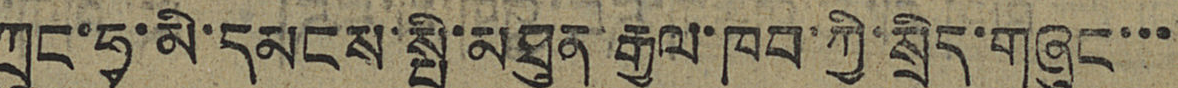ཀྲུང་ཧྭ་མི་དམངས་སྤྱི་མཐུན རྒྱལ་ཁབ་ཀྱི་སྲིད་གཞུང་་་
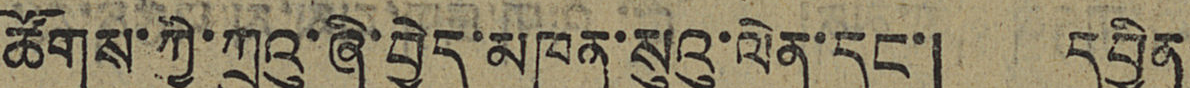ཚོགས་ཀྱི་ཀྲུའུ་ཞི་བྱེད་མཁན་སུའུ་ལེན་དང་། དབྱིན
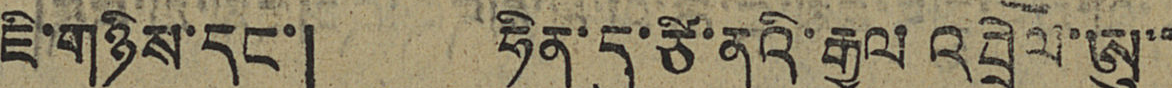ཇི་གཉིས་དང་། ཧིན་དུ་ཙི་ནའི་རྒྱལ འབྲེལ་ཨུ་་
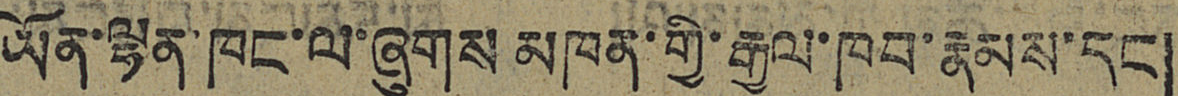ཡོན་ལྷན་ཁང་ལ་ཞུགས་མཁན་གྱི་རྒྱལ་ཁབ་རྣམས་དང།
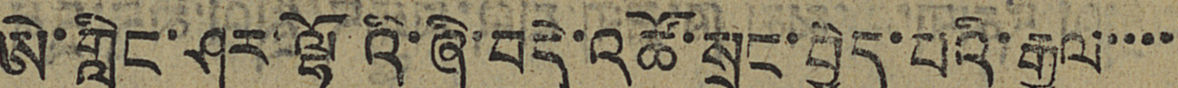ཨེ་གླིང་ཤར་ལྷོའི་ཞི་བདེ་འཚོ་སྲུང་བྱེད་པའི་རྒྱལ་་་་
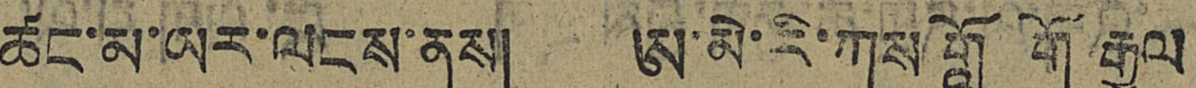ཚང་མ་ཡར་ལངས་ནས། ཨ་མེ་རི་ཀས གློ གོ རྒྱལ
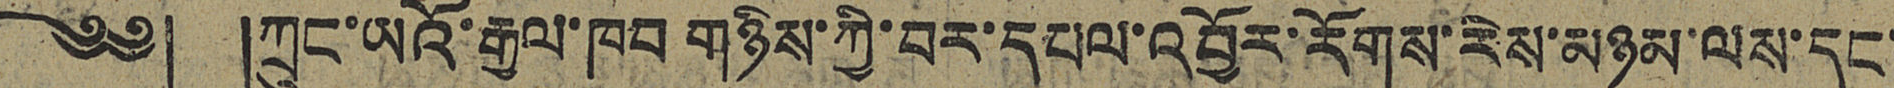༄༅། །ཀྲུང་ཡའོ་རྒྱལ་ཁབ གཉིས་ཀྱི་བར་དཔལ་འབྱོར་རོགས་རེས་མཉམ་ལས་དང་
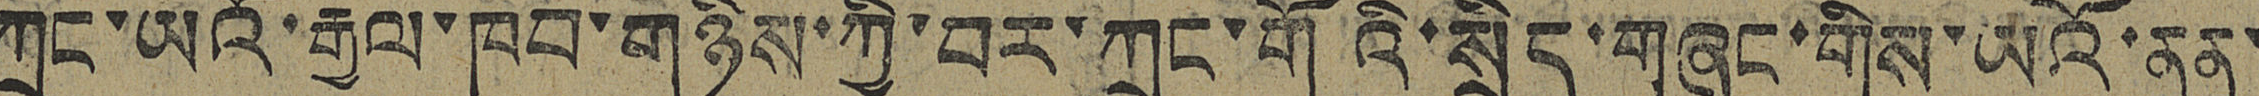ཀྲུང་ཡའོ་རྒྱལ་ཁབ་གཉིས་ཀྱི་བར་ཀྲུང་གོའི་སྲིད་གཞུང་གིས་ཡའོ་ནན་
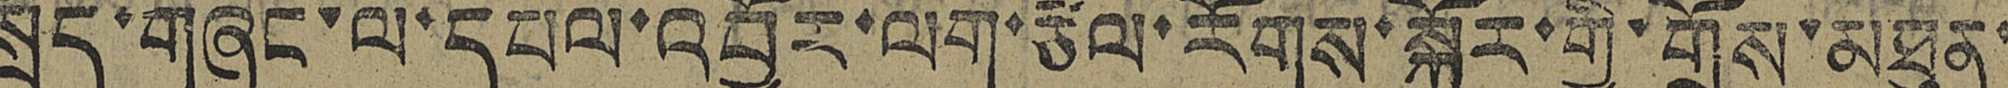སྲིད་གཞུང་ལ་དཔལ་འབྱོར་ལག་རྩལ་རོགས་སྐྱོར་གྱི་གྲོས་མཐུན་
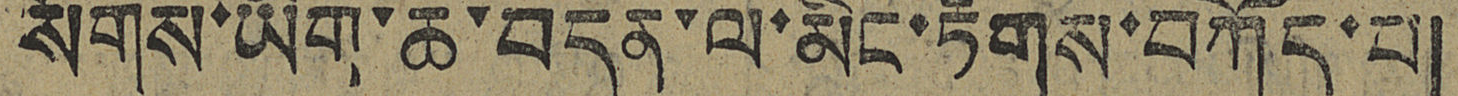སོགས་ཡིག་ཆ་བདུན་ལ་མིང་རྟགས་བཀོད་པ།
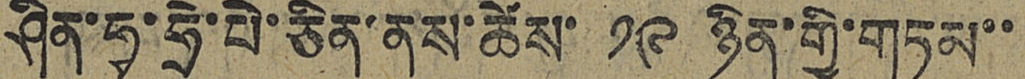ཤིན་ཧྭ་ཧྲེ་པེ་ཅིན་ནས་ཚེས་ ༡༩ ཉིན་གྱི་གཏམ་་
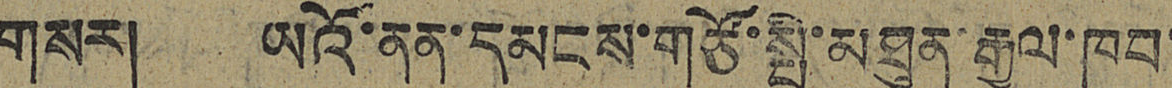གསར། ཡའོ་ནན་དམངས་གཙོ་སྤྱི་མཐུན་རྒྱལ་ཁབ་
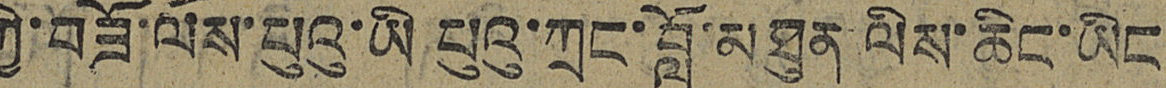ཀྱི་བཟོ་ལས་པུའུ་ཡི པུའུ་ཀྲང་བློ་མཐུན ལིས་ཆིང་ཡིང
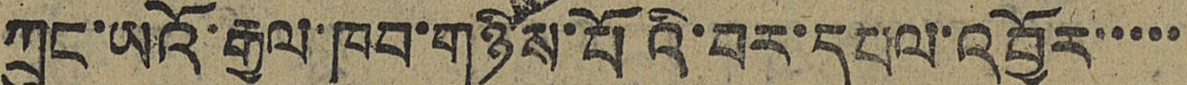ཀྲུང་ཡའོ་རྒྱལ་ཁབ་གཉིས་པོའི་བར་དཔལ་འབྱོར་་་་་
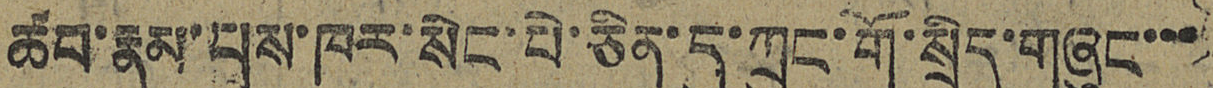ཚབ་རྣམ་པས་ཁར་སེང་པེ་ཅིན་དུ་ཀྲུང་གོ་སྲིད་གཞུང་་་
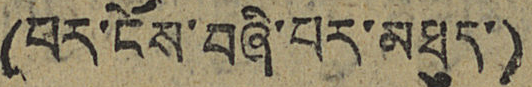(པར་ངོས་བཞི་པར་མཐུད་)
